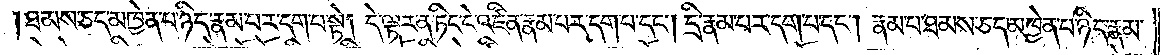ཐམས་ཅད་མཁྱེན་པ་ཉིད་རྣམ་པར་དག་པ་སྟེ། དེ་ལྟར་ན་ཏིང་ངེ་འཛིན་རྣམ་པར་དག་པ་དང༌། དྲི་རྣམ་པར་དག་པ་དང༌། རྣམ་པ་ཐམས་ཅད་མཁྱེན་པ་ཉིད་རྣམ་
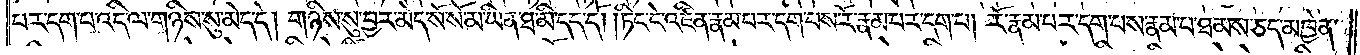པར་དག་པ་འདི་ལ་གཉིས་སུ་མེད་དེ། གཉིས་སུ་བྱར་མེད་སོ་སོ་མ་ཡིན་ཐ་མི་དད་དོ། །ཏིང་ངེ་འཛིན་རྣམ་པར་དག་པས་རོ་རྣམ་པར་དག་པ། རོ་རྣམ་པར་དག་པས་རྣམ་པ་ཐམས་ཅད་མཁྱེན་
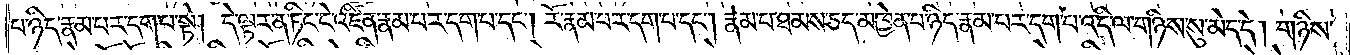པ་ཉིད་རྣམ་པར་དག་པ་སྟེ། དེ་ལྟར་ན་ཏིང་ངེ་འཛིན་རྣམ་པར་དག་པ་དང༌། རོ་རྣམ་པར་དག་པ་དང༌། རྣམ་པ་ཐམས་ཅད་མཁྱེན་པ་ཉིད་རྣམ་པར་དག་པ་འདི་ལ་གཉིས་སུ་མེད་དེ། གཉིས་
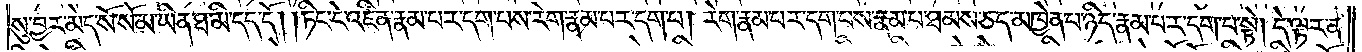སུ་བྱར་མེད་སོ་སོ་མ་ཡིན་ཐ་མི་དད་དོ། །ཏིང་ངེ་འཛིན་རྣམ་པར་དག་པས་རེག་རྣམ་པར་དག་པ། རེག་རྣམ་པར་དག་པས་རྣམ་པ་ཐམས་ཅད་མཁྱེན་པ་ཉིད་རྣམ་པར་དག་པ་སྟེ། དེ་ལྟར་ན་
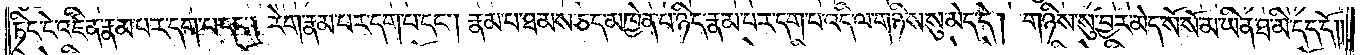ཏིང་ངེ་འཛིན་རྣམ་པར་དག་པ་དང༌། རེག་རྣམ་པར་དག་པ་དང༌། རྣམ་པ་ཐམས་ཅད་མཁྱེན་པ་ཉིད་རྣམ་པར་དག་པ་འདི་ལ་གཉིས་སུ་མེད་དེ། གཉིས་སུ་བྱར་མེད་སོ་སོ་མ་ཡིན་ཐ་མི་དད་དོ། །
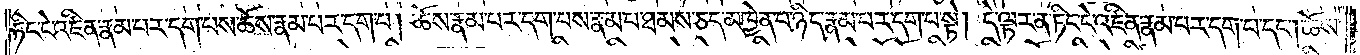ཏིང་ངེ་འཛིན་རྣམ་པར་དག་པས་ཆོས་རྣམ་པར་དག་པ། ཆོས་རྣམ་པར་དག་པས་རྣམ་པ་ཐམས་ཅད་མཁྱེན་པ་ཉིད་རྣམ་པར་དག་པ་སྟེ། དེ་ལྟར་ན་ཏིང་ངེ་འཛིན་རྣམ་པར་དག་པ་དང༌། ཆོས་
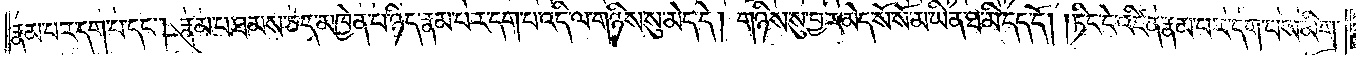རྣམ་པར་དག་པ་དང༌། རྣམ་པ་ཐམས་ཅད་མཁྱེན་པ་ཉིད་རྣམ་པར་དག་པ་འདི་ལ་གཉིས་སུ་མེད་དེ། གཉིས་སུ་བྱར་མེད་སོ་སོ་མ་ཡིན་ཐ་མི་དད་དོ། །ཏིང་ངེ་འཛིན་རྣམ་པར་དག་པས་མིག་
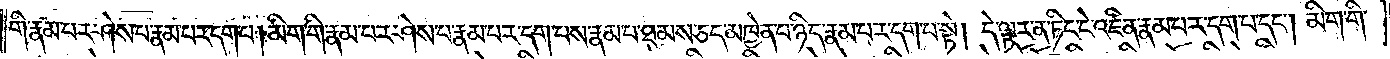གི་རྣམ་པར་ཤེས་པ་རྣམ་པར་དག་པ། མིག་གི་རྣམ་པར་ཤེས་པ་རྣམ་པར་དག་པས་རྣམ་པ་ཐམས་ཅད་མཁྱེན་པ་ཉིད་རྣམ་པར་དག་པ་སྟེ། དེ་ལྟར་ན་ཏིང་ངེ་འཛིན་རྣམ་པར་དག་པ་དང༌། མིག་གི་
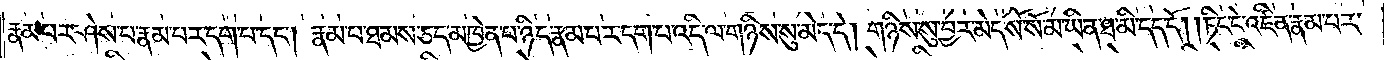རྣམ་པར་ཤེས་པ་རྣམ་པར་དག་པ་དང༌། རྣམ་པ་ཐམས་ཅད་མཁྱེན་པ་ཉིད་རྣམ་པར་དག་པ་འདི་ལ་གཉིས་སུ་མེད་དེ། གཉིས་སུ་བྱར་མེད་སོ་སོ་མ་ཡིན་ཐ་མི་དད་དོ། །ཏིང་ངེ་འཛིན་རྣམ་པར་
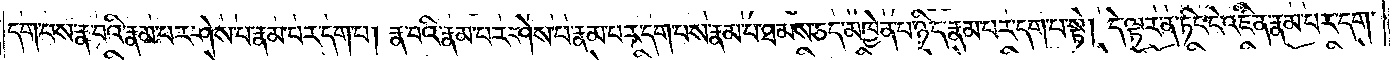དག་པས་རྣ་བའི་རྣམ་པར་ཤེས་པ་རྣམ་པར་དག་པ། རྣ་བའི་རྣམ་པར་ཤེས་པ་རྣམ་པར་དག་པས་རྣམ་པ་ཐམས་ཅད་མཁྱེན་པ་ཉིད་རྣམ་པར་དག་པ་སྟེ། དེ་ལྟར་ན་ཏིང་ངེ་འཛིན་རྣམ་པར་དག་
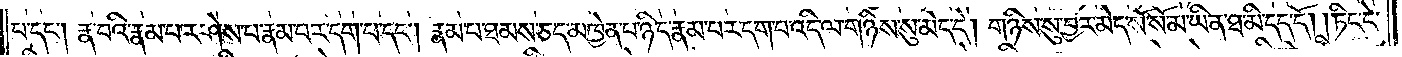པ་དང༌། རྣ་བའི་རྣམ་པར་ཤེས་པ་རྣམ་པར་དག་པ་དང༌། རྣམ་པ་ཐམས་ཅད་མཁྱེན་པ་ཉིད་རྣམ་པར་དག་པ་འདི་ལ་གཉིས་སུ་མེད་དེ། གཉིས་སུ་བྱར་མེད་སོ་སོ་མ་ཡིན་ཐ་མི་དད་དོ། །ཏིང་ངེ་
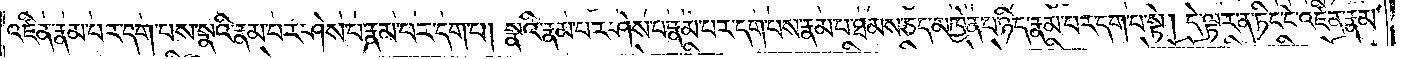འཛིན་རྣམ་པར་དག་པས་སྣའི་རྣམ་པར་ཤེས་པ་རྣམ་པར་དག་པ། སྣའི་རྣམ་པར་ཤེས་པ་རྣམ་པར་དག་པས་རྣམ་པ་ཐམས་ཅད་མཁྱེན་པ་ཉིད་རྣམ་པར་དག་པ་སྟེ། དེ་ལྟར་ན་ཏིང་ངེ་འཛིན་རྣམ་
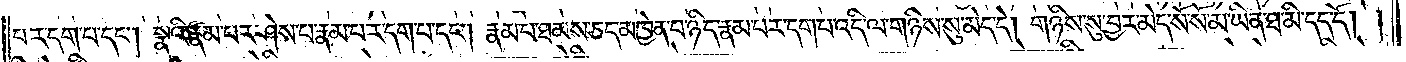པར་དག་པ་དང༌། སྣའི་རྣམ་པར་ཤེས་པ་རྣམ་པར་དག་པ་དང༌། རྣམ་པ་ཐམས་ཅད་མཁྱེན་པ་ཉིད་རྣམ་པར་དག་པ་འདི་ལ་གཉིས་སུ་མེད་དེ། གཉིས་སུ་བྱར་མེད་སོ་སོ་མ་ཡིན་ཐ་མི་དད་དོ། །
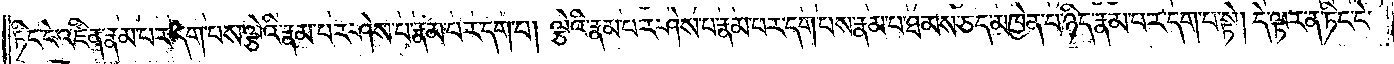ཏིང་ངེ་འཛིན་རྣམ་པར་དག་པས་ལྕེའི་རྣམ་པར་ཤེས་པ་རྣམ་པར་དག་པ། ལྕེའི་རྣམ་པར་ཤེས་པ་རྣམ་པར་དག་པས་རྣམ་པ་ཐམས་ཅད་མཁྱེན་པ་ཉིད་རྣམ་པར་དག་པ་སྟེ། དེ་ལྟར་ན་ཏིང་ངེ་
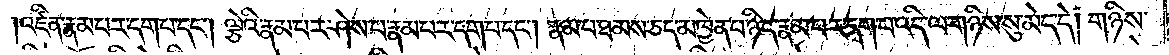འཛིན་རྣམ་པར་དག་པ་དང༌། ལྕེའི་རྣམ་པར་ཤེས་པ་རྣམ་པར་དག་པ་དང༌། རྣམ་པ་ཐམས་ཅད་མཁྱེན་པ་ཉིད་རྣམ་པར་དག་པ་འདི་ལ་གཉིས་སུ་མེད་དེ། གཉིས་
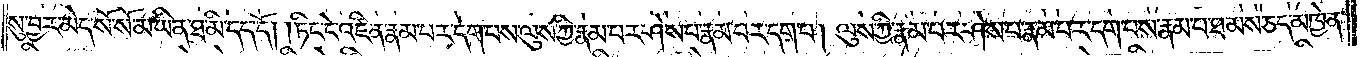སུ་བྱར་མེད་སོ་སོ་མ་ཡིན་ཐ་མི་དད་དོ། །ཏིང་ངེ་འཛིན་རྣམ་པར་དག་པས་ལུས་ཀྱི་རྣམ་པར་ཤེས་པ་རྣམ་པར་དག་པ། ལུས་ཀྱི་རྣམ་པར་ཤེས་པ་རྣམ་པར་དག་པས་རྣམ་པ་ཐམས་ཅད་མཁྱེན་
